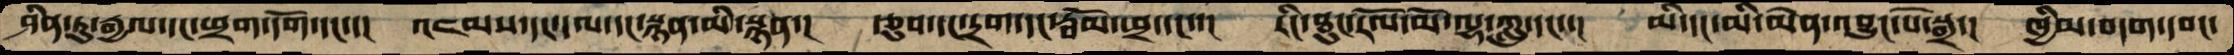ཤིན་ཏུ་རྒྱལ་དང་ཕྲག་དོག་དང་་།  འཇམས་དང་དལ་དང་སྙན་མི་སྙན་།  རྩུབ་དང་དྲག་དང་རྦོམ་ཕྲ་དང་་།  རིང་ཐུང་རོལ་མོ་ལྷ་ཀླུ་དང་་།  མི་དང་མི་མེན་འབྱུང་པོ་སྒྲ་།  ཁྱིམ་བདག་དབང་
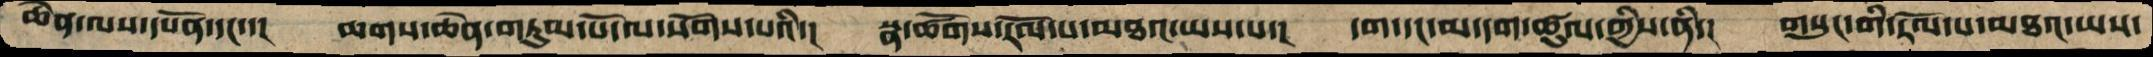ཆེན་ལས་དཔོན་དང་་།  ཆགས་ཆེན་གཏུམ་པོ་ལ་སོགས་པའི་།  སྣ་ཚོགས་རོལ་པ་མཐའ་ཡས་པ་།  དག་དང་མ་དག་ཚུལ་གྱིས་ནི་།  གསུང་གི་རོལ་པ་མཐའ་ཡས་
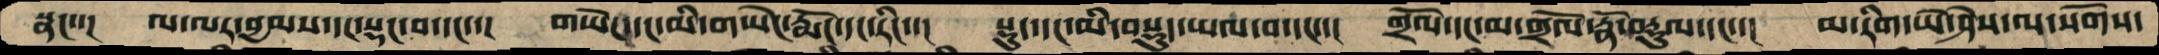སྣང་་།  ལ་ལར་བྱམས་དང་སྡང་བ་དང་་།  གཡེང་དང་མི་གཡེང་རྨོང་དང་རིང་་།  སྡུད་དང་མི་བསྡུད་ཡལ་བ་དང་་།  གྲོལ་དང་མ་གྲོལ་རྣོ་བརྟུལ་དང་་།  མ་རིག་ཡེ་ཤེས་ལ་སོགས་
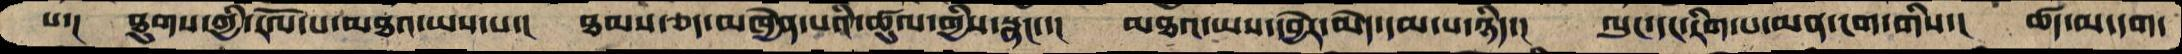པ་།  ཐུགས་གྱི་རོལ་པ་མཐའ་ཡས་པ་།  ཐམས་ཅད་མཁྱེན་པའི་ཚུལ་གྱིས་སྣང་་།  མཐའ་ཡས་དབྱེར་མེད་དམ་པ་ཉིད་།  ལུང་དང་རིག་པ་མན་ངག་གིས་།  ཚད་མ་དག་
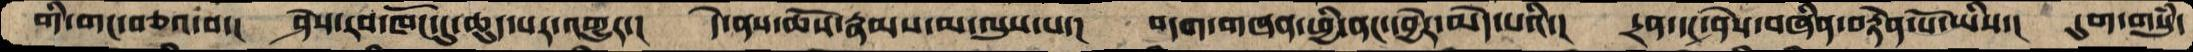གི་གང་བཅའ་བ་།  ཤེས་རབ་ཁོང་དུ་ཆུད་པར་འགྱུར་།  དེ་ནས་ཆོས་རྣམས་མ་ལུས་པ་།  བདག་གཞན་ཕྱི་ནང་དབྱེར་མེད་པའི་།  དྲན་དང་ཤེས་བཞིན་བརྟེན་པོ་ཡིས་།  དུག་གསུཾ་
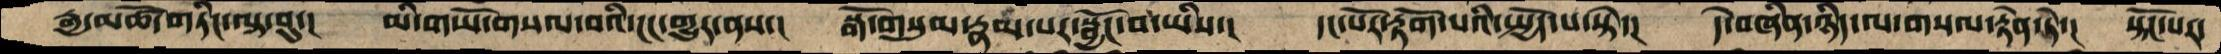རྒྱ་མཚོ་གཏིང་ལྟ་བུ་།  མི་གཡོ་གསལ་བའི་ངང་གྱུར་ནས་།  སྒོ་གསུམ་རྣམ་པར་སྦྱོང་བ་ཡིས་།  དང་པོར་རྟོག་པའི་སྤྱོད་པ་སྟེ་།  དེ་བཞིན་ཉིད་ལ་གསལ་རྟེན་ཏེ་།  སྟོང་པར་
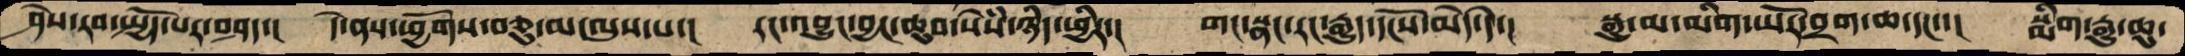ཤེས་རབ་སྤྱོད་པར་བཤད་།  དེ་ནས་ཕྱོགས་བཅུ་མ་ལུས་པ་།  རང་འབྱུང་བྱང་ཆུབ་སེཾས་ཉིད་ཕྱིར་།  གང་སྣང་རང་རྒྱུད་དངོས་མེད་དེ་།  སྒྱུ་མ་མིག་ཡོར་བྲག་ཆ་དང་་།  སྨིག་རྒྱུ་ཆུ་
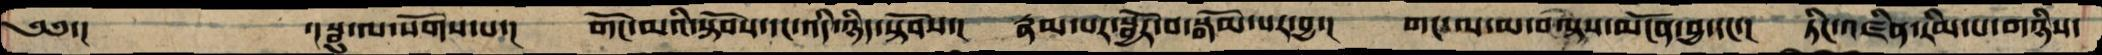༄༅་།      ་།སྦུ་ལ་སོགས་པ་།  གོང་མའི་སྟོབས་དང་འདི་ཉིད་སྟོབས་།  རྣམ་པར་སྦྱོར་བ་སྒོམ་པར་བྱ་།  གང་ལ་མ་བལྟས་མངོན་བྱ་དང་་།  ཏིང་འཛིན་རིམ་པ་གཉིས་
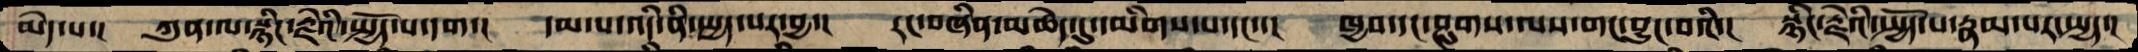མེད་པ་།  ཀུན་ལ་སྙིང་རྗེའི་སྤྱོད་པ་དག་།  དམ་པ་འདི་ནི་སྤྱད་པར་བྱ་།  རང་བཞིན་མཆེད་དུ་དམིགས་པ་དང་་།  ཁྱབ་དང་ཤུགས་ལས་གང་བྱུང་བའི་།  སྙིང་རྗེའི་སྤྱོད་པ་རྣམ་པར་སྤྱད་།
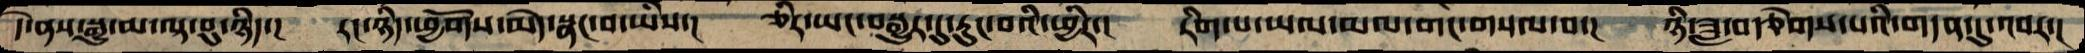དེ་ནས་སྒྱུ་མ་ལྟ་བུ་ཉིད་།  རང་ཉིད་ཕྱོགས་མེད་སྣང་བ་ཡིས་།  ཅིར་ཡང་བསྒྱུར་དུ་རུང་བའི་ཕྱིར་།  རིག་པ་ཡལ་མལ་གང་གསལ་བ་།  ཉི་ཟླ་བརྩེགས་པའི་གདན་དུ་འབར་།
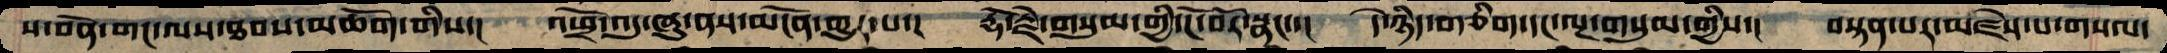ས་བོན་གང་ལས་ཐབས་མཆོག་གིས་།  འཕྲོ་འདུ་ཞུ་ནས་མངོན་གྱུར་པ་།  རྡོ་རྗེ་གསུམ་གྱི་ངོ་བོར་སྣང་་།  དེ་ཉིད་བརྩིག་དང་ལྔ་གསུམ་གྱིས་།  བསྟན་པར་མཛེས་པ་གསལ་
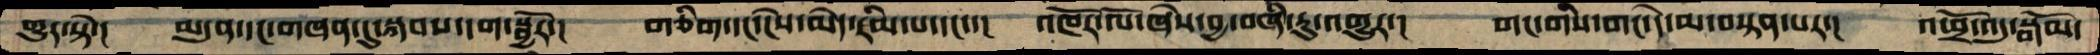གྱུར་སྟེ་།  མདུན་དང་གཞན་དུ་སྐབས་དག་སྦྱོར་།  གཅིག་དང་ངེས་མེད་རིམ་པ་དང་་།  འཁོར་ལོ་ཞེས་བྱ་བཞི་རུ་འགྱུར་།  གང་གིས་གང་དེ་མ་བསྟན་པར་།  འཕྲོ་འདུ་སྒོམ་
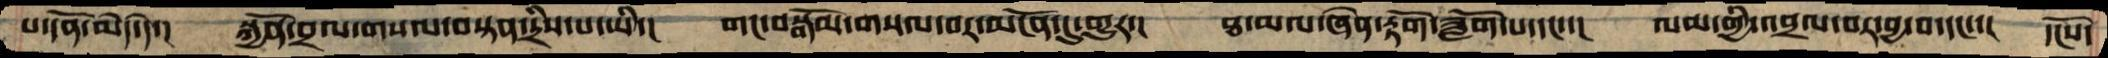པ་དོན་མེད་དེ་།   སྐྱོན་བྲལ་གསལ་བསྟན་དྲིས་པ་ཡི་།  གང་བསྒོམ་གསལ་བར་མངོན་དུ་གྱུར་།   ཐ་མལ་ཞེན་རྟོག་ཟློག་པ་དང་་།  ལམ་གྱི་འབྲལ་བར་བྱ་བ་དང་་།  དངོས་
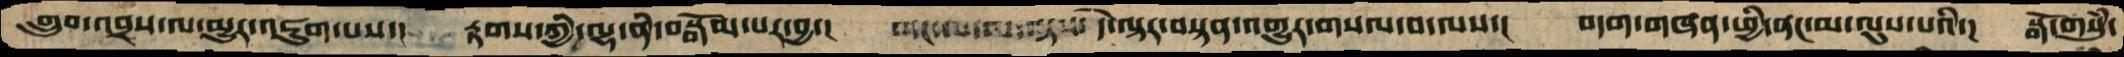གྲུབ་འབྲས་ལ་མྱུར་འཇུག་པས་།   རྟགས་གྱི་ལྷ་ནི་བསྒོམ་པར་བྱ་།  གང་ལ་མ་ལྟས་ དེ་ལྟར་བསྟན་འགྱུར་གསལ་བ་ལས་།  བདག་གཞན་ཕྱི་ནང་མ་ལུས་པའི་།  སྒོ་གསུཾ་
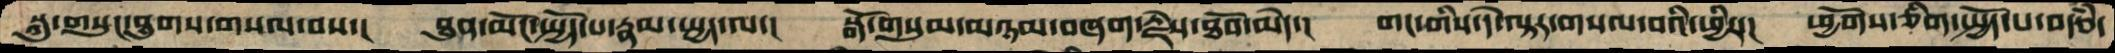སྐུ་གསུང་ཐུགས་གསལ་བས་།   ཐུན་མོང་སྤྱོད་པ་རྣམ་སྤྱད་ལ་།  སྒོ་གསུམ་མཉམ་བཞག་རྗེས་ཐོབ་མེད་།  གང་གིས་དེ་ལྟར་གསལ་བའི་ཕྱིར་།  ཕྱོགས་ཅིག་སྤྱོད་པ་བརྩཾ་
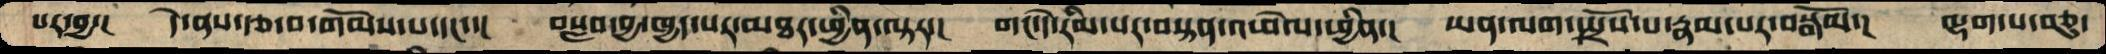པར་བྱ་།   དེ་ནས་རྩ་བ་གོམས་པ་དང་་།  བསླབ་བྱ་ཁྱད་པར་མཐར་ཕྱིན་ལྟར་།  གང་དེ་རིམ་པར་བསྟན་འཕེལ་ཕྱིན་།  ཡན་ལག་སྤྲོས་པ་རྣམ་པར་བསྒོམ་།  ལྷག་པ་བཅུ་
